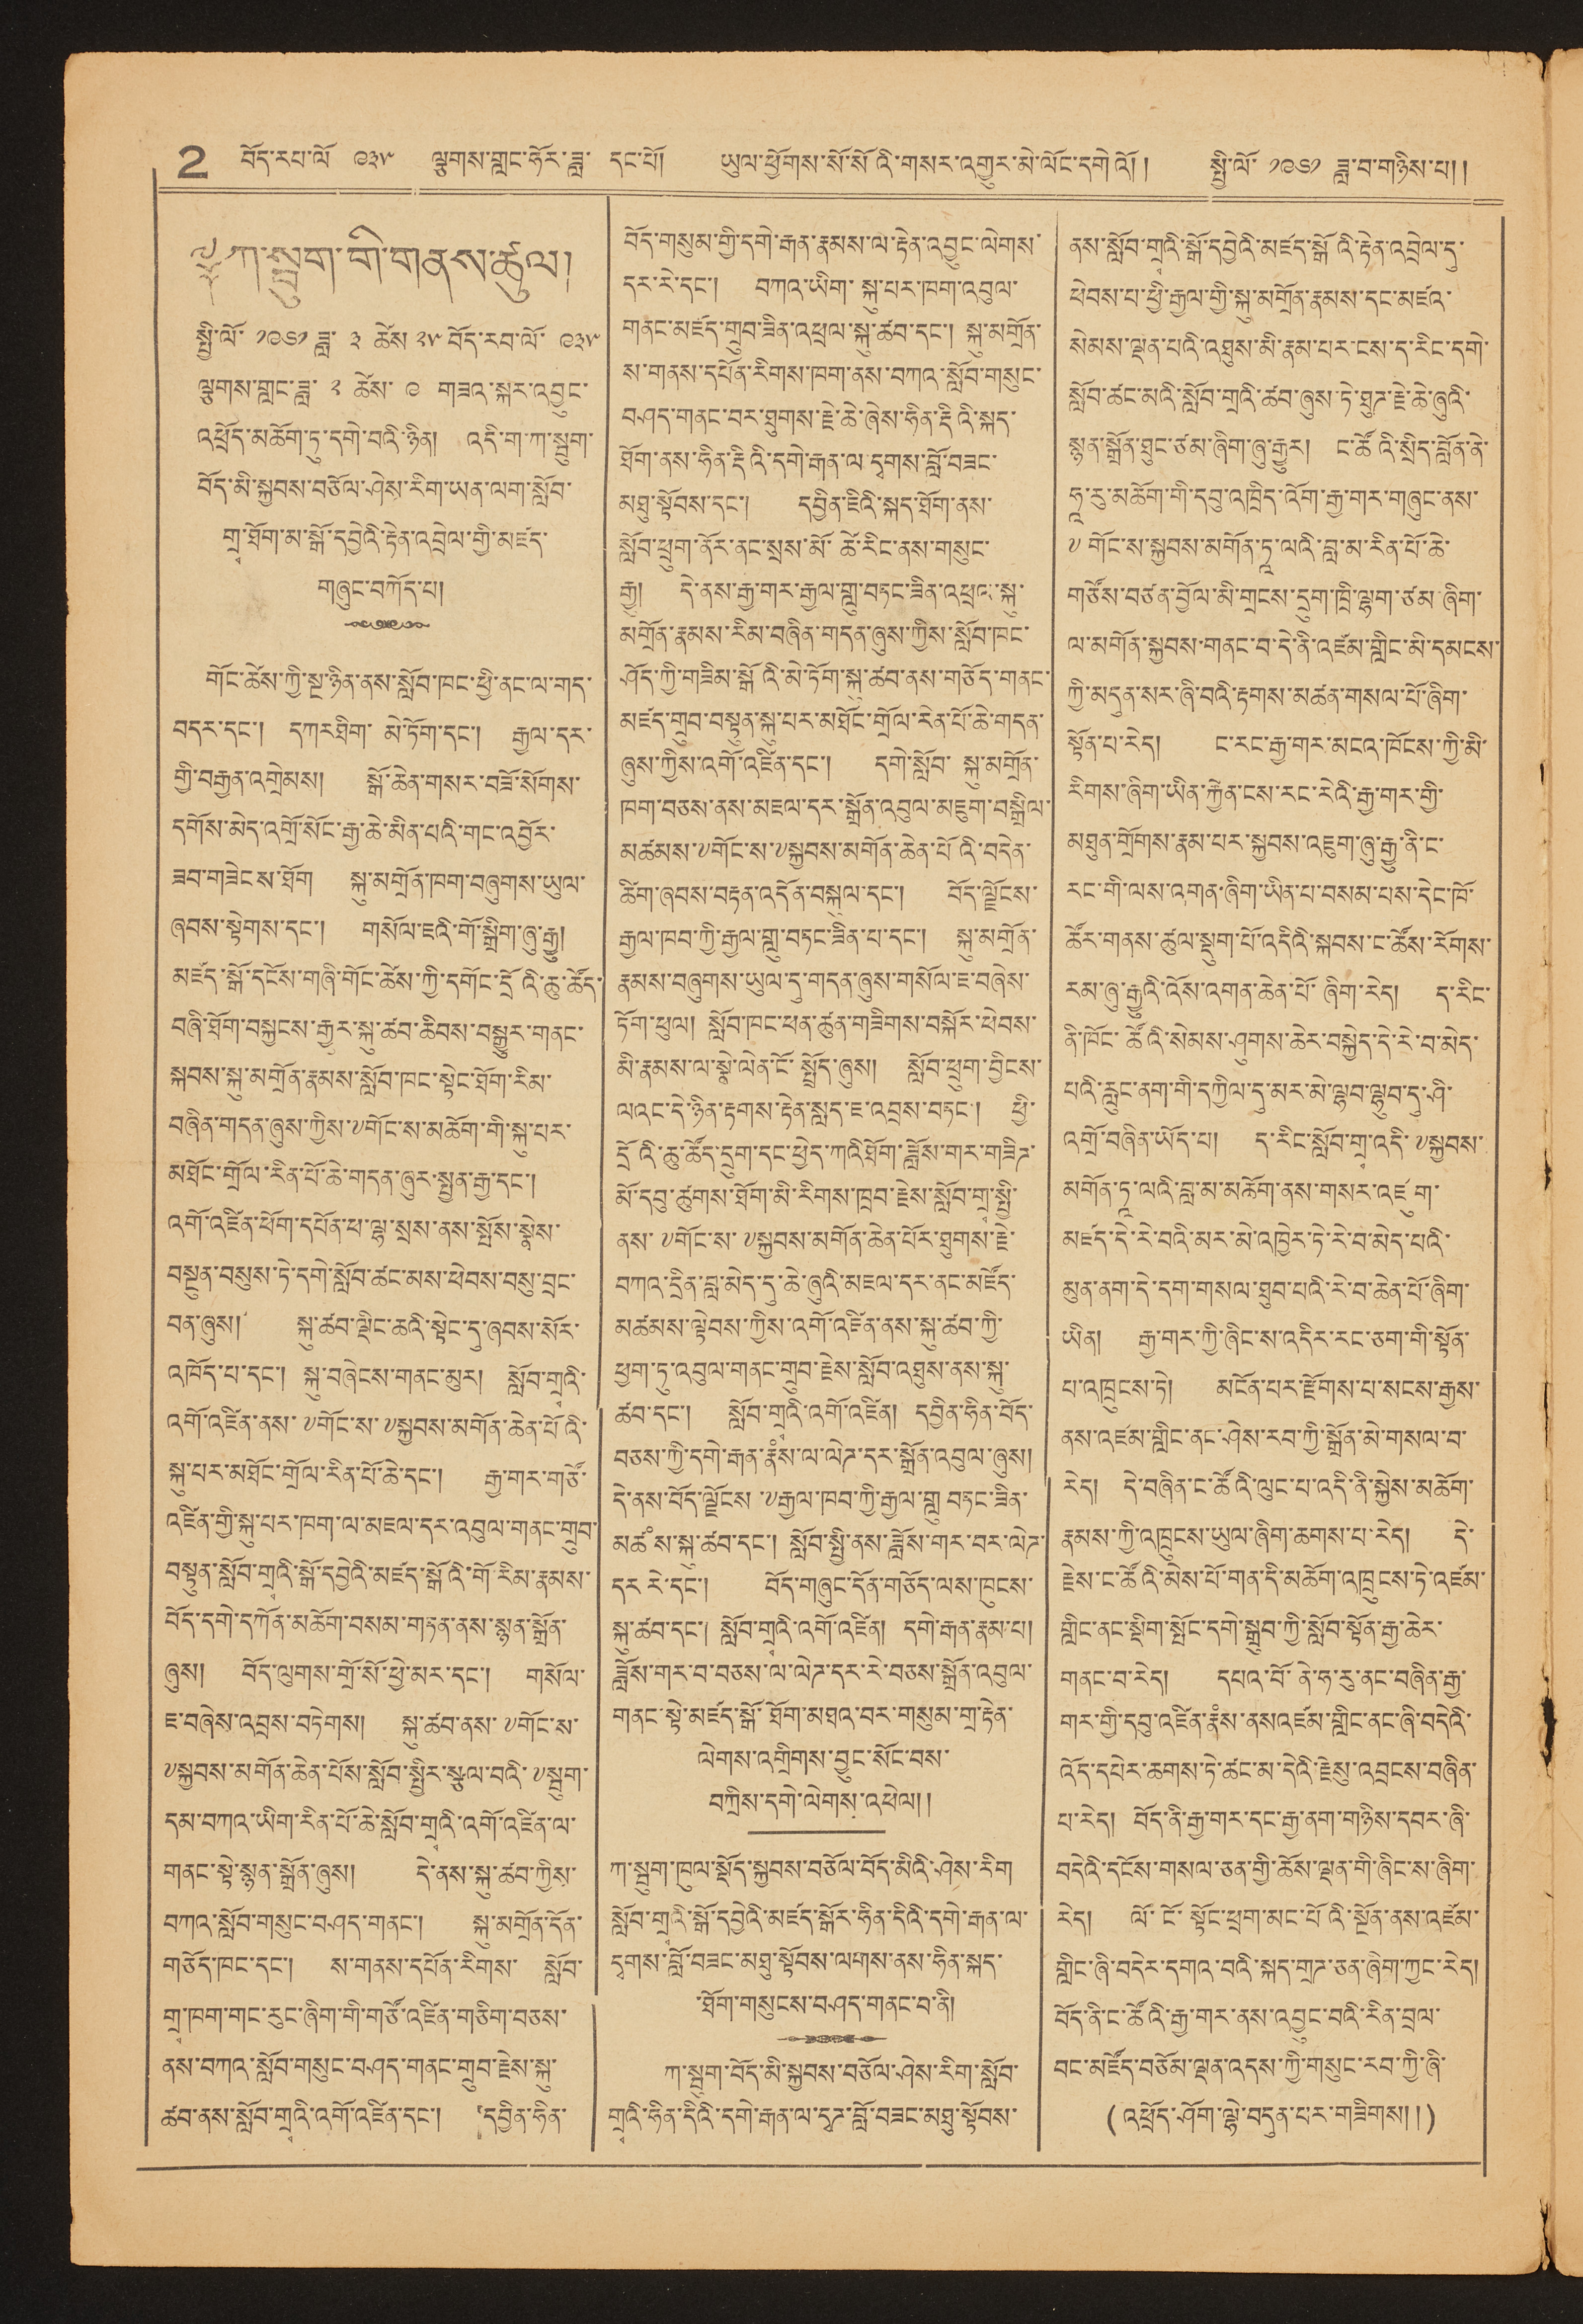2 བོད་རབ་ལོ་ ༩༣༥ ལྕགས་གླང་ཧོར་ཟླ་ དང་པོ། ཡུལ་ཕྱོགས་སོ་སོའི་གསར་འགྱུར་མེ་ལོང་དགེའོ༎ སྤྱི་ལོ་ ༡༩༦༡ ཟླ་བ་གཉིས་པ༎
༈ ཀ་སྦུག་གི་གནས་ཚུལ།
སྤྱི་ལོ་ ༡༩༦༡ ཟླ་ ༣ ཚེས་ ༢༥ བོད་རབ་ལོ་ ༩༣༥
ལྕགས་གླང་ཟླ་ ༢ ཚེས་ ༩ གཟའ་སྐར་འབྱུང་
འཕྲོད་མཆོག་ཏུ་དགེ་བའི་ཉིན།། འདི་ག་ཀ་སྦུག་
བོད་མི་སྐྱབས་བཅོལ་ཤེས་རིག་ཡན་ལག་སློབ་
གྲྭ་ཐོག་མ་སྒོ་དབྱེའི་རྟེན་འབྲེལ་གྱི་མཛད་
གཞུང་བཀོད་པ།
གོང་ཚེས་ཀྱི་སྔ་ཉིན་ནས་སློབ་ཁང་ཕྱི་ནང་ལ་གད་
བདར་དང་། དཀར་ཐིག་ མེ་ཏོག་དང་། རྒྱལ་དར་
གྱི་བརྒྱན་འགྲེམས། སྒོ་ཆེན་གསར་བཟོ་སོགས་
དགོས་མེད་འགྲོ་སོང་རྒྱ་ཆེ་མིན་པའི་གང་འབྱོར་
ཟབ་གཟེངས་ཐོག སྐུ་མགྲོན་ཁག་བཞུགས་ཡུལ་
ཞབས་སྟེགས་དང་། གསོལ་ཇའི་གོ་སྒྲིག་ཞུ་རྒྱུ།
མཛད་སྒོ་དངོས་གཞི་གོང་ཚེས་ཀྱི་དགོང་དྲོའི་ཆུ་ཚོད་
བཞི་ཐོག་བསྐྱངས་རྒྱར་སྐུ་ཚབ་ཆིབས་བསྒྱུར་གནང་
སྐབས་སྐུ་མགྲོན་རྣམས་སློབ་ཁང་སྟེང་ཐོག་རིམ་
བཞིན་གདན་ཞུས་ཀྱིས་༸གོང་ས་མཆོག་གི་སྐུ་པར་
མཐོང་གྲོལ་རིན་པོ་ཆེ་གདན་ཞུར་སྤྱན་རྒྱ་དང་།
འགོ་འཛིན་ཕོག་དཔོན་ཕ་ལྷ་སྲས་ནས་སྤོས་སྣེས་
བསྔུན་བསུས་ཏེ་དགེ་སློབ་ཚང་མས་ཕེབས་བསུ་བྲང་
བན་ཞུས། སྐུ་ཚབ་ལྡིང་ཆའི་སྟེང་དུ་ཞབས་སོར་
འཁོད་པ་དང་། སྐུ་བཞེངས་གནང་མུར། སློབ་གྲྭའི་
འགོ་འཛིན་ནས་༸གོང་ས་༸སྐྱབས་མགོན་ཆེན་པོའི་
སྐུ་པར་མཐོང་གྲོལ་རིན་པོ་ཆེ་དང་། རྒྱ་གར་གཙོ་
འཛིན་གྱི་སྐུ་པར་ཁག་ལ་མཇལ་དར་འབུལ་གནང་གྲུབ་
བསྟུན་སློབ་གྲྭའི་སྒོ་དབྱེའི་མཛད་སྒོའི་གོ་རིམ་རྣམས་
བོད་དགེ་དཀོན་མཆོག་བསམ་གཏན་ནས་སྙན་སྒྲོན་
ཞུས། བོད་ལུགས་གྲོ་སོ་ཕྱེ་མར་དང་། གསོལ་
ཇ་བཞེས་འབྲས་བཏེགས། སྐུ་ཚབ་ནས་༸གོང་ས་
༸སྐྱབས་མགོན་ཆེན་པོས་སློབ་སྤྱིར་སྩལ་པའི་༸སྦུག་
དམ་བཀའ་ཡིག་རིན་པོ་ཆེ་སློབ་གྲྭའི་འགོ་འཛིན་ལ་
གནང་སྟེ་སྙན་སྒྲོན་ཞུས། དེ་ནས་སྐུ་ཚབ་ཀྱིས་
བཀའ་སློབ་གསུང་བཤད་གནང་། སྐུ་མགྲོན་དོན་
གཅོད་ཁང་དང་། ས་གནས་དཔོན་རིགས་ སློབ་
གྲྭ་ཁག་གང་རུང་ཞིག་གཙོ་འཛིན་གཅིག་བཅས་
ནས་བཀའ་སློབ་གསུང་བཤད་གནང་གྲུབ་རྗེས་སྐུ་
ཚབ་ནས་སློབ་གྲྭའི་འགོ་འཛིན་དང་། དབྱིན་ཧིན་
བོད་གསུམ་གྱི་དགེ་རྒན་རྣམས་ལ་རྟེན་འབྱུང་ལེགས་
དར་རེ་དང་། བཀའ་ཡིག་སྐུ་པར་ཁག་འབུལ་
གནང་མཛད་གྲུབ་ཟིན་འཕྲལ་སྐུ་ཚབ་དང་། སྐུ་མགྲོན་
ས་གནས་དཔོན་རིགས་ཁག་ནས་བཀའ་སློབ་གསུང་
བཤད་གནང་བར་ཐུགས་རྗེ་ཆེ་ཞེས་ཧིན་རྡིའི་སྐད་
ཐོག་ནས་ཧིན་རྡིའི་དགེ་རྒན་ལ་དྭགས་བློ་བཟང་
མཐུ་སྟོབས་དང་། དབྱིན་ཇིའི་སྐད་ཐོག་ནས་
སློབ་ཕྲུག་ནོར་ནང་སྲས་མོ་ཚེ་རིང་ནས་གསུང་
རྒྱུ། དེ་ནས་རྒྱ་གར་རྒྱལ་གླུ་བཏང་ཟིན་འཕྲལ་སྐུ་
མགྲོན་རྣམས་རིམ་བཞིན་གདན་ཞུས་ཀྱིས་སློབ་ཁང་
ཤོད་ཀྱི་གཟིམ་སྒོའི་མེ་ཏོག་སྐུ་ཚབ་ནས་གཅོད་གནང་
མཛད་གྲུབ་བསྟུན་སྐུ་པར་མཐོང་གྲོལ་རིན་པོ་ཆེ་གདན་
ཞུས་ཀྱིས་འགོ་འཛིན་དང་། དགེ་སློབ་ སྐུ་མགྲོན་
ཁག་བཅས་ནས་མཇལ་དར་སྒྲོན་འབུལ་མཇུག་བསྒྲིལ་
མཚམས་༸གོང་ས་༸སྐྱབས་མགོན་ཆེན་པོའི་བདེན་
ཚོག་ཞབས་བརྟན་འདོན་བསྐུལ་དང་། བོད་ལྗོངས་
རྒྱལ་ཁབ་ཀྱི་རྒྱལ་གླུ་བཏང་ཟིན་པ་དང་། སྐུ་མགྲོན་
རྣམས་བཞུགས་ཡུལ་དུ་གདན་ཞུས་གསོལ་ཇ་བཞེས་
ཏོག་ཕུལ། སློབ་ཁང་ཕན་ཚུལ་གཟིགས་བསྐོར་ཕེབས་
མི་རྣམས་ལ་སྣེ་ལེན་ངོ་སྤྲོད་ཞུས། སློབ་ཕྲུག་བྱིངས་
ལའང་དེ་ཉིན་རྟགས་རྟེན་སླད་ཇ་འབྲས་བཏང་། ཕྱི་
དྲོའི་ཆུ་ཚོད་དྲུག་དང་ཕྱེད་ཀའིཐོག་ཟློས་གར་གཟིཊ་
མོ་དབུ་ཚུགས་ཐོག་མི་རིགས་ཁྲབ་རྗེས་སློབ་གྲྭ་སྤྱི་
ནས་༸གོང་ས་༸སྐྱབས་མགོན་ཆེན་པོར་ཐུགས་རྗེ་
བཀའ་དྲིན་བླ་མེད་དུ་ཆེ་ཞུའི་མཇལ་དར་ནང་མཛོད་
མཚམས་ལྟེབས་ཀྱིས་འགོ་འཛིན་ན་སྐུ་ཚབ་ཀྱི་
ཕྱག་ཏུ་འབུལ་གནང་གྲུབ་རྗེས་སློབ་འཐུས་ནས་སྐུ་
ཚབ་དང་། སློབ་གྲྭའི་འགོ་འཛིན། དབྱིན་ཧིན་བོད་
བཅས་ཀྱི་དགེ་རྒན་རྣཾས་ལ་ལེཊ་དར་སྒྲོན་འབུལ་ཞུས།
དེ་ནས་བོད་ལྗོངས་༸རྒྱལ་ཁབ་ཀྱི་རྒྱལ་གླུ་བཏང་ཟིན་
མཚཾས་སྐུ་ཚབ་དང་། སློབ་སྤྱི་ནས་ཟློས་གར་བར་ལེཊ་
དར རེ་དང་། བོད་གཞུང་དོན་གཅོད་ལས་ཁུངས་
སྐུ་ཚབ་དང་། སློབ་གྲྭའི་འགོ་འཛིན། དགེ་རྒན་རྣམ་པ།
ཟློས་གར་བ་བཅས་ལ་ལེཊ་དར་རེ་བཅས་སྒྲོན་འབུལ་
གནང་སྟེ་མཛད་སྒོ་ཐོག་མཐའ་བར་གསུམ་གྲ་རྟེན་
ལེགས་འགྲིགས་བྱུང་སོང་བས་
བཀྲིས་དགེ་ལེགས་འཕེལ།།
ཀ་སྦུག་ཁུལ་སྡོད་སྐྱབས་བཅོལ་བོད་མིའི་ཤེས་རིག
སློབ་གྲྭའི་སྒོ་དབྱེའི་མཛད་སྒོར་ཧིན་དིའི་དགེ་རྒན་ལ་
དྭགས་བློ་བཟང་མཐུ་སྟོབས་ལགས་ནས་ཧིན་སྐད་
་ཐོག་གསུངས་བཤད་གནང་བ་ནི།
ཀ་སྦུག་བོད་མི་སྐྱབས་བཅོས་ཤེས་རིག་སློབ་
གྲྭའི་ཧིན་དེའི་དགེ་རྒན་དྭཊ་བློ་བཟང་མཐུ་སྟོབས་
ནས་སློབ་གྲྭའི་སྒོ་དབྱེའི་མཛད་སྒོའི་རྟེན་འབྲེལ་དུ་
ཕེབས་པ་ཕྱི་རྒྱལ་གྱི་སྐུ་མགྲོན་རྣམས་དང་མཛའ་
སེམས་ལྡན་པའི་འཐུས་མི་རྣམ་པར་ངས་ད་རིང་དགེ་
སློབ་ཚང་མའི་སློབ་གྲའི་ཚབ་ཞུས་ཏེ་ཐུཊ་རྗེ་ཆེ་ཞུའི་
སྙན་སྒྲོན་ཐུང་ཙམ་ཞིག་ཞུ་རྒྱུར། ང་ཚོའི་སྲིད་བློན་ནེ་
ཧཱ་རུ་མཆོག་གི་དབུ་འཁྲིད་འོག་རྒྱ་གར་གཞུང་ནས
༸གོང་ས་སྐྱབས་མགོན་ཏཱ་ལའི་བླ་མ་རིན་པོ་ཆེ་
གཙོས་བཙན་བྱོལ་མི་གྲངས་དྲུག་ཁྲི་ལྷག་ཙམ་ཞིག་
ལ་མགོན་སྐྱབས་གནང་བ་དེ་ནི་འཛམ་གླིང་མི་དམངས་
ཀྱི་མདུན་སར་ཞི་བའི་རྟགས་མཚན་གསལ་པོ་ཞིག་
སྟོན་པ་རེད། ང་རང་རྒྱ་གར་མངའ་ཁོངས་ཀྱི་མི་
རིགས་ཞིག་ཡིན་རྐྱེན་ངས་རང་རེའི་རྒྱ་གར་གྱི་
མཐུན་གྲོགས་རྣམ་པར་སྐྱབས་འཇུག་ཞུ་རྒྱུ་ནི་ང་
རང་གི་ལས་འགན་ཞིག་ཡིན་པ་བསམ་པས་དེང་ཁོ་
ཚོར་གནས་ཚུལ་སྡུག་པོ་འདིའི་སྐབས་ང་ཚོས་རོགས་
རམ་ཞུ་རྒྱུའི་འོས་འགན་ཆེན་ཞིག་རེད། ད་རིང་
ནི་ཁོང་ཚོའི་སེམས་ཤུགས་ཆེར་བསྐྱེད་དེ་རེ་བ་མེད་
པའི་རླུང་ནག་གི་དཀྱིལ་དུ་མར་མེ་ལྷབ་ལྷུབ་དུ་ཤི་
འགྲོ་བཞིན་ཡོད་པ། ད་རིང་སློབ་གྲྭ་འདི་༸སྐྱབས་
མགོན་ཏཱ་ལའི་བླ་མ་མཆོག་ནས་གསར་འཛུག་
མཛད་དེ་རེ་བའི་མར་མེ་འཁྱེར་ཏེ་རེ་བ་མེད་པའི་
མུན་ནག་དེ་དག་གསལ་ཐུབ་པའི་རེ་བ་ཆེན་པོ་ཞིག་
ཡིན། རྒྱ་གར་ཀྱི་ཞིང་ས་འདིར་རང་ཅག་གི་སྟོན་
པ་འཁྲངས་ཏེ། མངོན་པར་རྫོགས་པ་སངས་རྒྱས་
ནས་འཛམ་གླིང་ནང་ཤེས་རབ་ཀྱི་སྒྲོན་མེ་གསལ་བ་
རེད། དེ་བཞིན་ང་ཚོའི་ལུང་པ་འདི་ནི་སྐྱེས་མཆོག་
རྣམས་ཀྱི་འཁྲུངས་ཡུལ་ཞིག་ཆགས་པ་རེད། དེ་
རྗེས་ང་ཚོའི་མེས་པོ་གན་དི་མཆོག་འཁྲུངས་ཏེ་འཛམ་
གླིང་ནང་སྡིག་སྤོང་དགེ་སྒྲུབ་ཀྱི་སློབ་སྟོན་རྒྱ་ཆེར་
གནང་བ་རེད། དཔའ་བོ་ནི་ཧ་རུ་ནང་བཞིན་རྒྱ་
གར་གྱི་དབུ་འཛིན་རྣཾས་ནས་འཛམ་གླིང་ནང་ཞི་བདེའི་
འོད་དཔེར་ཆགས་ཏེ་ཚང་མ་དེའི་རྗེསུ་འབྲངས་བཞིན་
པ་རེད། བོད་ནི་རྒྱ་གར་དང་རྒྱ་ནག་གཉིས་དབར་ཞི་
བདེའི་དངོས་གསལ་ཅན་གྱི་ཆོས་ལྡན་གི་ཞིང་ས་ཞིག་
རེད། ལོ་ངོ་སྟོང་ཕྲག་མང་པོའི་སྔོན་ནས་འཛམ་
གླིང་ཞི་བདེར་དགའ་བའི་སྐད་གྲཊ་ཅན་ཞིག་ཀྱང་རེད།
བོད་ནི་ང་ཚོའི་རྒྱ་གར་ནས་འབྱུང་བའི་རིན་བྲལ་
བང་མཛོད་བཅོམ་ལྡན་འདས་ཀྱི་གསུང་རབ་ཀྱི་ཞི་
(འཕྲོད་ཤོག་ལྷེ་བདུན་པར་གཟིགས།།)
